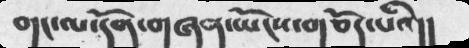གང་ལ་དོན་གཞན་ཡོངས་གཅོད་པའི།།
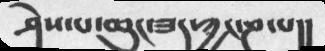ཤེས་པ་ཆུང་ཟད་ཀྱང་ཎ་པ།།
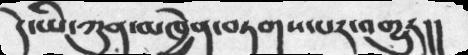དེ་ཡི་ཀུན་མཁྱེན་བཏགས་པར་འགྱུར།།
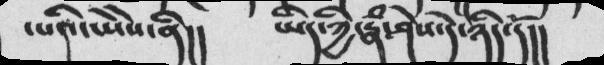་པའི་ཡེེས་ནི།།   ཡིད་ཀྱི་རྣཾ་ཤེས་དེ་ཉིད་དོ།།
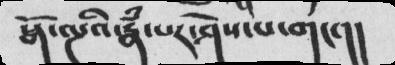སྒོ་ལྔའི་རྣཾ་པར་ཤེས་པ་གང་།།
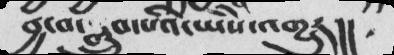བྱ་བ་སྒྲུབ་པའི་ཡེེས་འགྱུར།།
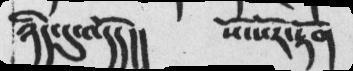ཉིད་དུ་འདོད།།                 སོ་སོར་རྟོག
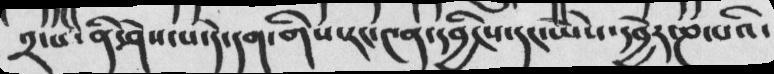༢་ོཔ་ནི་ཤེས་པ་དེ་དག་གིས་རང་༤ན་དབྱིངས་དང་ཡེེས་དབྱེར་ཎ་པའི་
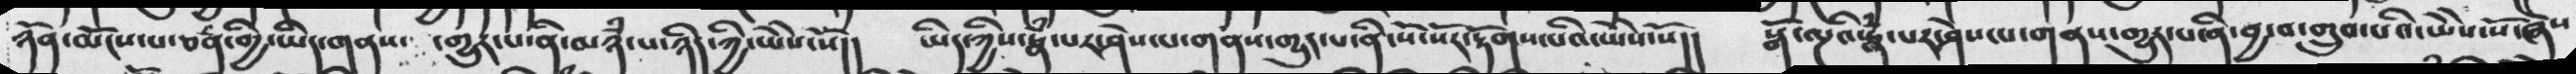ཉོན་མོངས་པ་ཅན་གྱི་ཡིད་གནས་ ་གྱུར་པ་ནི་མཉཾ་པ་ཉིད་ཀྱི་ཡེེས་སོ།།  ཡིད་ཀྱིས་རྣཾ་པར་ཤེས་པ་གནས་གྱུར་པ་ནི་སོ་སོར་རྟོགས་པའི་ཡེེས་སོ།།  སྒོ་ལྔའི་རྣཾ་པར་ཤེས་པ་གནས་གྱུར་པ་ནི་བྱ་བ་གྲུབ་པའི་ཡེེས་སོ་ཞེས
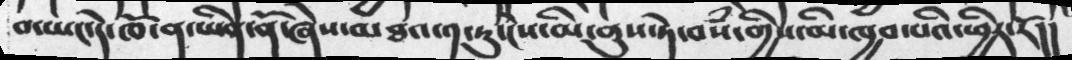བ་ཡང་དེ་ཁོ་ན་ཡིན་ནོ་ཞེས་མཐའ་༡་ཏུ་ངེས་མི་ནུས་ཏེ་བསཾ་གྱིས་མི་ཁྱབ་པའི་ཕྱིར་རོ།།
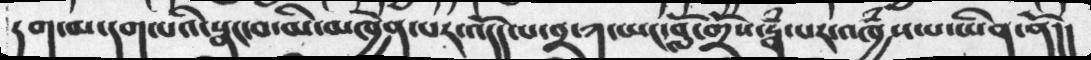དག་མ་དག་པའི་སྣང་བ་མི་མཁྱེན་པར་འདོད་པ་༢་ཀ་ཡང་བློ་གྲོས་རྣཾ་པར་འཁྱཾས་པ་ཡིན་ནོ།།
